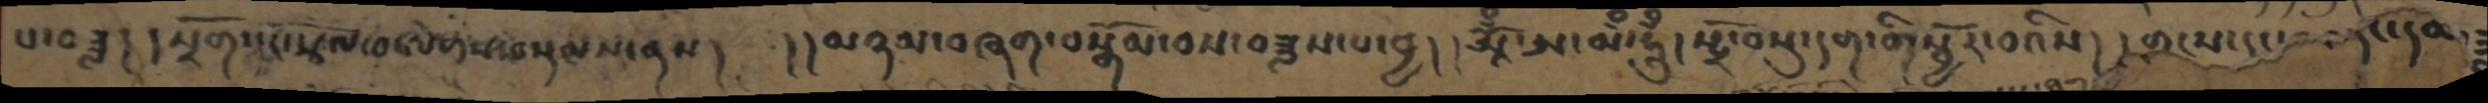པ་བཟླ། །སྲོག་དང་རྩོལ་བ་ལེགས་བསྡམས་ནས། །།མཉམ་བཞག་བསྒོམ་བས་བཟླས་པ་བྱ། །ཨཱོྃ་ཨ་མྃ་ཧཱུྃ། སྤྲོ་བསྡུ་དག་གི་སྦྱོར་བའིས། །གྲངས་དང་མཚན་དཔེ་
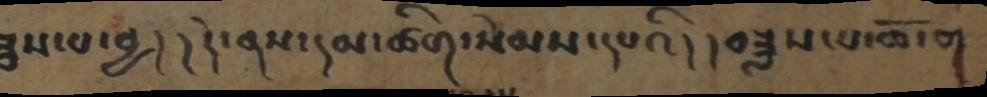ཟླས་པ་བྱ།  །དེ་ནས་དམ་ཚིག་སེམས་དཔའི། །བཟླས་པ་ཆོ་ག
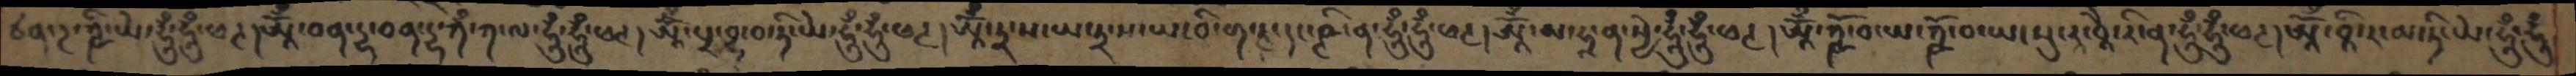ཙན་ཌ་ཀྵི་ཡེ་ཧཱུྃ་ཧཱུྃ་ཕཊ།ཨཱོཾ་བན་དྷ་བན་དྷ་ཀཾ་ཀ་ལ་ཧཱུྃ་ཧཱུྃ་ཕཊ།ཨཱོཾ་དྲ་ས་ཡ་དྲ་ས་ཡ་བི་ག་རུ་དང་ཥྚི་ན་ཧཱུྃ་ཧཱུྃ་ཕཊ།ཨཱོཾ་མ་ཧཱ་ན་སྱེ་ཧཱུྃ་ཧཱུྃ་ཕཊ །ཨཱོཾ་ཀྵོ་བ་ཡ་ཀྵོ་བ་ཡ་སུ་རཱ་བཱཻ་རི་ན་ཧཱུྃ་ཧཱུྃ་ཕཊ།ཨཱོཾ་བཱི་ར་མ་ཏི་ཡེ་ཧཱུྃ་ཧཱུྃ
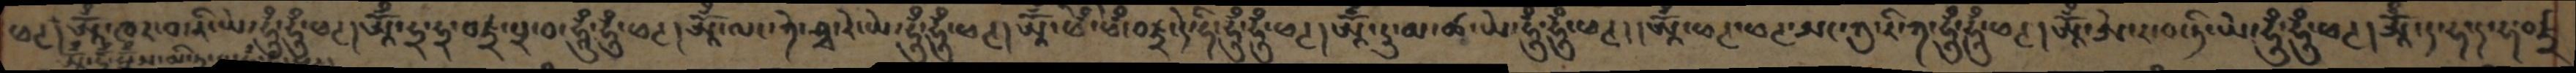ཕཊ། ཨཱོྃ་ཁར་བ་ཏི་ཡེ་ཧཱུྃ་ཧཱུྃ་ཕཊ། ཨཱོྃ་ཧྲ་ཧྲ་བཛྲ་པྲ་བ་ཧཱུྃ་ཧཱུྃ་ཕཊ། ཨཱོྃ་ལང་ཀེ་ཤྭ་རེ་ཡེ་ཧཱུྃ་ཧཱུྃ་ཕཊ། ཨཱོྃ་ཕེཾ་ཕེཾ་བཛྲ་དེ་ཧི་ཧཱུྃ་ཧཱུྃ་ཕཊ། ཨཱོྃ་རུ་མ་ཚ་ཡེ་ཧཱུྃ་ཧཱུྃ་ཕཊ། །ཨཱོྃ་ཕཊ་ཕཊ་ཨང་ཀུ་རི་ཀ་ཧཱུྃ་ཧཱུྃ་ཕཊ། ཨཱོྃ་ཨེ་ར་བ་ཏི་ཡེ་ཧཱུྃ་ཧཱུྃ་ཕཊ། ཨཱོྃ་ད་ཧ་ད་ཧ་བཛྲ
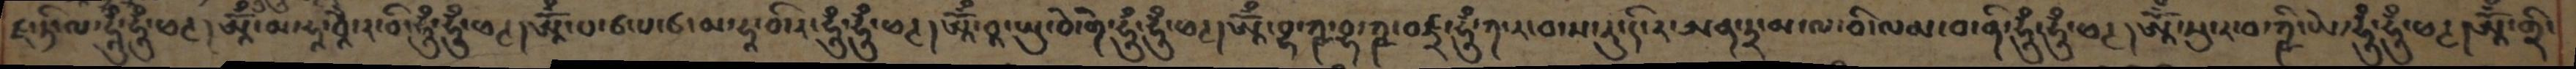ཛ་ཏི་ལ་ཧཱུྃ་ཧཱུྃ་ཕཊ། ཨཱོཾ་མ་ཧཱ་བཱཻ་ར་བི་ཧཱུྃ་ཧཱུྃ་ཕཊ།  ཨཱོཾ་པ་ཙ་པ་ཙ་མ་ཧཱ་བི་ར་ཧཱུྃ་ཧཱུྃ་ཕཊ། ཨཱོཾ་བཱ་ཡུ་བེ་གེ་ཧཱུྃ་ཧཱུྃ་ཕཊ།ཨཱོཾ་བྷ་ཀྵ་བྷ་ཀྵ་བཛྲ་ཧཱུྃ་ཀ་ར་བ་ས་རུ་དི་ར་ཨན་དྲ་མ་ལ་བི་ལམ་བ་ནི་ཧཱུྃ་ཧཱུྃ་ཕཊ། ཨཱོཾ་སུ་ར་བ་ཀྵི་ཡེ་ཧཱུྃ་ཧཱུྃ་ཕཊ།ཨཱོཾ་གྲི་
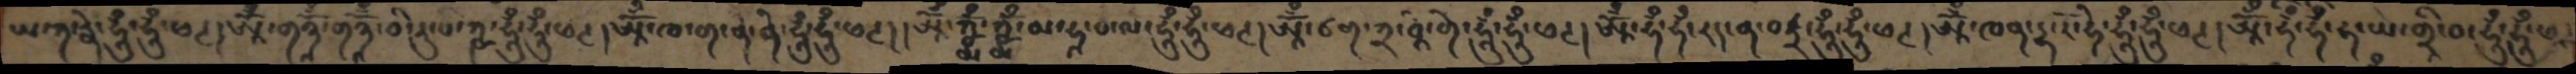ཡ་ཀ་རྣེ་ཧཱུྃ་ཧཱུྃ་ཕཊ། ཨཱོཾ་གཉཱོཾ་གཉཱོཾ་བི་རུ་པ་ཀྵ་ཧཱུྃ་ཧཱུྃ་ཕཊ། །ཨཱོཾ་ཁ་ག་ནེ་ནེ་ཧཱུྃ་ཧཱུྃ་ཕཊ། །ཨཱོཾ་ཀྵྨོཾ་ཀྵྨོཾ་མ་ཧཱ་པ་ལ་ཧཱུྃ་ཧཱུྃ་ཕཊ། ཨཱོཾ་ཙག་ཀྲ་བཱི་གེ་ཧཱུྃ་ཧཱུྃ་ཕཊ། ཨཱོཾ་ཧྃ་ཧྃ་རད་ན་བཛྲ་ཧཱུྃ་ཧཱུྃ་ཕཊ། ཨཱོཾ་ཁན་དྷ་རོ་ཧེ་ཧཱུྃ་ཧཱུྃ་ཕཊ། ཨཱོཾ་ཧྃ་ཧྃ་ཧ་ཡ་གྲྭི་བ་ཧཱུྃ་ཧཱུྃ་ཕཊ
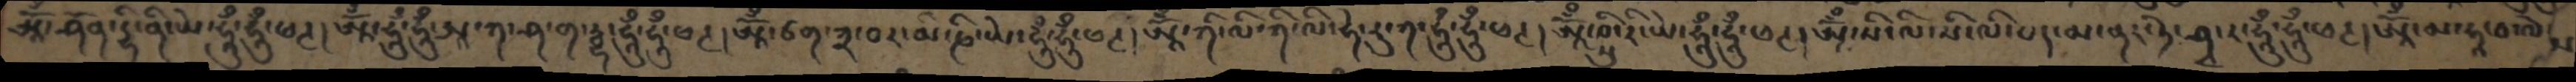ཨཱོྃ་ཤོན་དྷི་ནི་ཡེ་ཧཱུྃ་ཧཱུྃ་ཕཊ། ཨཱོྃ་ཧཱུྃ་ཧཱུྃ་ཨཱ་ཀ་ཤ་ག་རྦྷ་ཧཱུྃ་ཧཱུྃ་ཕཊ། ཨཱོྃ་ཙག་ཀྲ་བར་མི་ཎེ་ཡེ་ཧཱུྃ་ཧཱུྃ་ཕཊ། ཨཱོྃ་ཀི་ལི་ཀི་ལི་ཧེ་རུ་ཀ་ཧཱུྃ་ཧཱུྃ་ཕཊ། ཨཱོྃ་སུ་བི་རི་ཡེ་ཧཱུྃ་ཧཱུྃ་ཕཊ། ཨཱོྃ་སི་ལི་སི་ལི་པད་མ་ནར་ཏེ་ཤྭ་ར་ཧཱུྃ་ཧཱུྃ་ཕཊ། ཨཱོྃ་མ་ཧཱ་བ་ལེ་ས
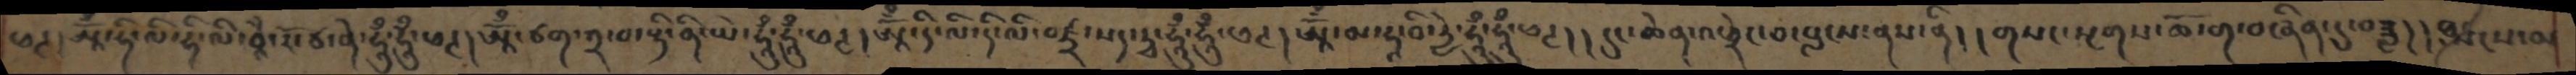ཕཊ། ཨཱོྃ་ཧི་ལི་ཧི་ལི་བཱཻ་རོ་ཙ་ནེ་ཧཱུྃ་ཧཱུྃ་ཕཊ། ཨཱོྃ་ཙག་ཀྲ་བ་སྟི་ནི་ཡེ་ཧཱུྃ་ཧཱུཾ་ཕཊ། ཨཱོྃ་རི་ལི་རི་ལི་བཛྲ་སད་ཏྭ་ཧཱུྃ་ཧཱུཾ་ཕཊ། ཨཱོྃ་མ་ཧཱ་བི་ཏྱེ་ཧཱུྃ་ཧཱུཾ་ཕཊ། །དུང་ཆེན་འཕྲེང་བ་བླངས་ནས་ནི། །གསང་སྔགས་ཆོ་ག་བཞིན་དུ་བཟླ། །ཐུགས་ལ
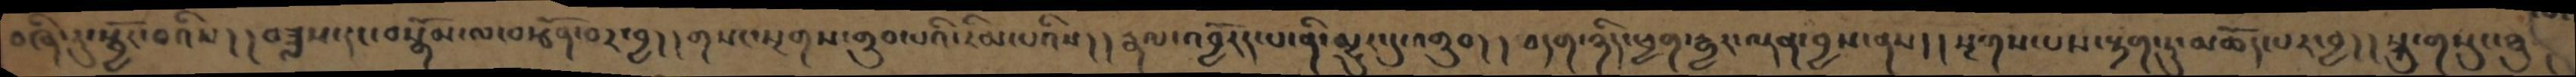བཞི་རུ་སྦྱོར་བའིས། །བཟླས་དང་བསྒོམ་ལ་བརྩོན་པར་བྱ། །གསང་སྔགས་གྲུབ་པའི་རིམ་པའིས། །རྣལ་འབྱོརད་པ་ནི་མྱུར་དུ་འགྲུབ། །བདག་ཉིད་ཕྱག་རྒྱར་ལྡན་བྱས་ནས། །སྔགས་པས་རྟག་ཏུ་མཆོད་པར་བྱ། །སྐུ་གསུང་ཐུ
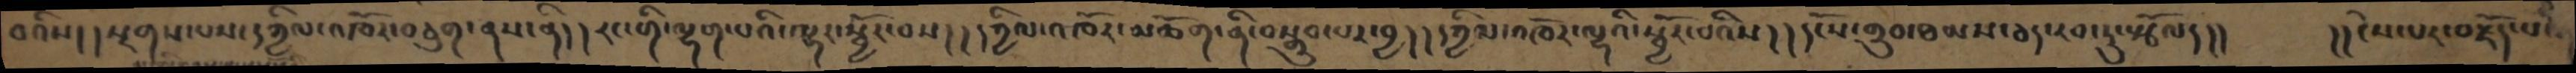བའིས། །སྔགས་པས་དཀྱིལ་འཁོར་བཅུག་ནས་ནི། །རང་གི་ལྷག་པའི་ལྷར་སྦྱོར་བས། །དཀྱིལ་འཁོར་མཆོག་ནི་བསྒྲུབ་པར་བྱ། །དཀྱིལ་འཁོར་ལྷའི་སྦྱོར་པའིས། །དངོས་གྲུབ་ཐམས་ཅད་རབ་ཏུ་སྩོལ།།   །།ངེས་པར་བརྗོད་པ་
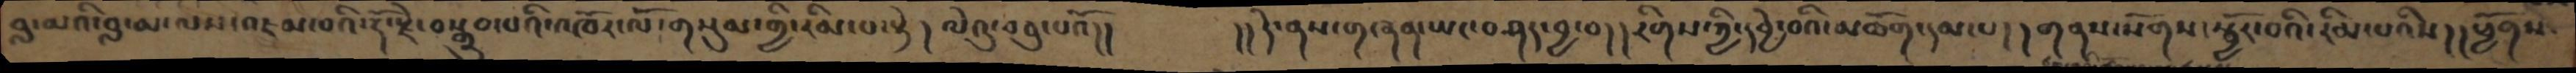བླ་མའི་བླ་མ་ལས་འཇམ་བའི་རྡོ་རྗེ་བསྒྲུབ་པའི་འཁོར་ལོ་གསུམ་གྱི་རིམ་པ་སྟེ། ལེའུ་བཅུ་པའོ།།     །།དེ་ནས་གཞན་ཡང་བཤད་བྱ་བ། །རིགས་ཀྱི་དབྱེ་བའི་མཆོག་དམ་པ། །གནས་སོགས་སྦྱོར་བའི་རིམ་པའིས། །ཕྱོགས་
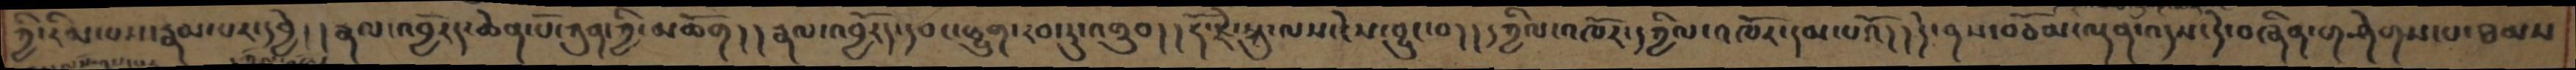ཀྱི་རིམ་པས་རྣམ་པར་དབྱེ། །རྣལ་འབྱོརད་ཆེན་པོ་ཀུན་ཀྱི་མཆོག། །རྣལ་འབྱོརད་དབང་ཕྱུག་རབ་ཏུ་འགྲུབ། །རྡོ་རྗེ་སྐུ་ལས་ངེས་བྱུང་བ། །དཀྱིལ་འཁོར་དཀྱིལ་འཁོར་དམ་པའོ། །དེ་ནས་བཅོམ་ལྡན་འདས་དེ་བཞིན་གཤེགས་པ་ཐམས
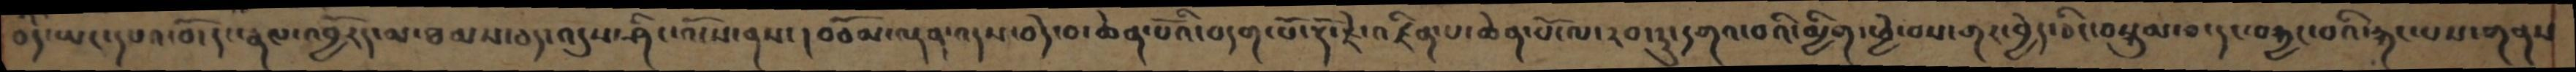བདེ་ཡང་དཔའ་བོ་དང་རྣལ་འབྱོརད་མ་ཐམས་ཅད་འདུས་ཤིང་འོངས་ནས་ །བཅོམ་ལྡན་འདས་བདེ་བ་ཆེན་པོའི་བདག་པོ་རྡོ་རྗེ་འཛིན་པ་ཆེན་པོ་ལ་རབ་ཏུ་དགའ་བའི་མྱིག་ཕྱེ་བས་གར་བྱེད་ཅིང་བསྐུམ་བ་དང་བརྐྱང་བའི་རྐང་པས་གནས་
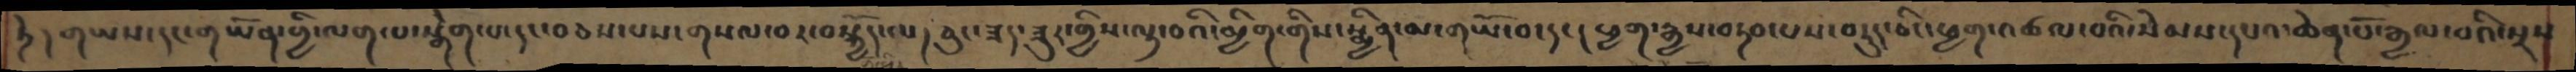ཏེ།གཡས་དང་གཡོན་གྱི་ལག་པ་སྒེག་པ་དང་བཅས་པས་གསལ་བར་བསྐྱོད་ལ། ཅུང་ཟད་ཟུར་གྱིས་ལྟ་བའི་མྱིག་གིས་སྨྱིན་མ་གཡོ་བ་དང། ཕྱག་རྒྱས་བཏབ་པས་བཏུད་ཅིང་ཕྱག་འཚལ་བའི་སེམས་དཔའ་ཆེན་པོ་རྒྱལ་བའི་སྲས
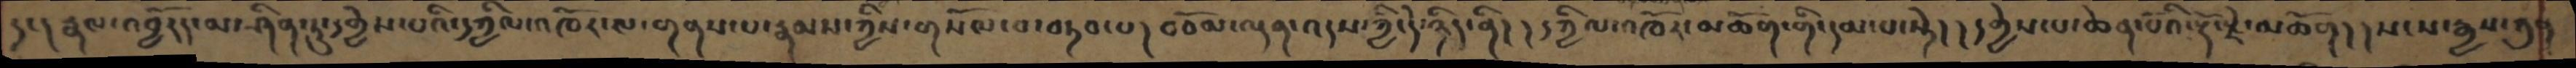དང། རྣལ་འབྱོརད་མ་ཤིན་ཏུ་དགྱེས་པའི་དཀྱིལ་འཁོར་ལ་གནས་པ་རྣམས་ཀྱིས་གསོལ་བ་བཏབ་པ། བཅོམ་ལྡན་འདས་ཀྱི་དེ་ཉིད་ནི། །དཀྱིལ་འཁོར་མཆོག་གི་དམ་པ་སྟེ། །དགྱེས་པ་ཆེན་པའི་རྡོ་རྗེ་མཆོག། །སངས་རྒྱས་ཀུན
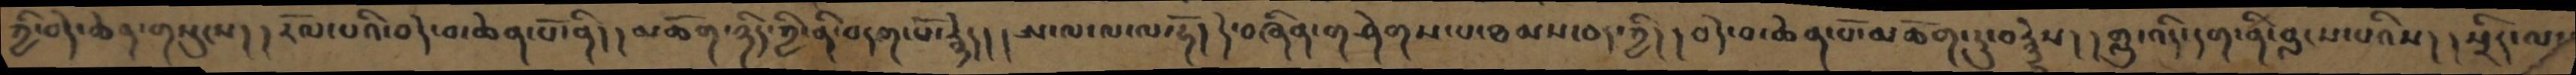ཀྱི་བདེ་ཆེན་གསུངས། ། རོལ་པའི་བདེ་བ་ཆེན་པོ་ནི། ། མཆོག་ཉིད་ཀྱི་ནི་བདག་པོ་རྙེད། །ཨ་ལ་ལ་ལ་ཧོ། དེ་བཞིན་གཤེགས་པ་ཐམས་ཅད་ཀྱི། །བདེ་བ་ཆེན་པོ་མཆོག་ཏུ་བརྙེས། །གླུ་འདི་དག་ནི་བླངས་པའིས། །སྲིད་ལ་
